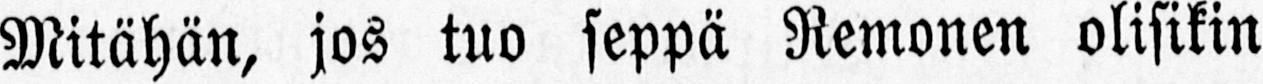Mitähän, jos tuo seppä Remonen olisikin
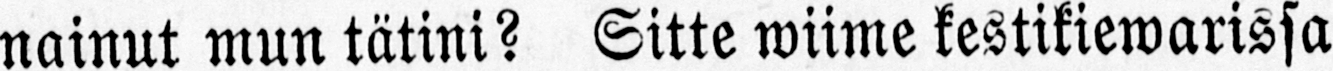nainut mun tätini? Sitte wiime kestikiewarissa
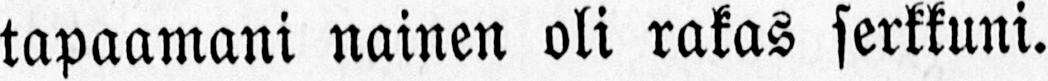tapaamani nainen oli rakas serkkuni.
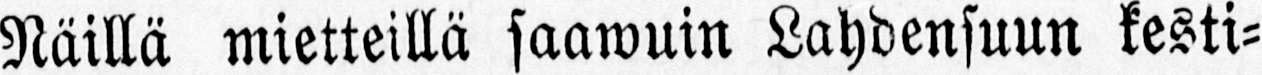Näillä mietteillä saawuin Lahdensuun kesti-
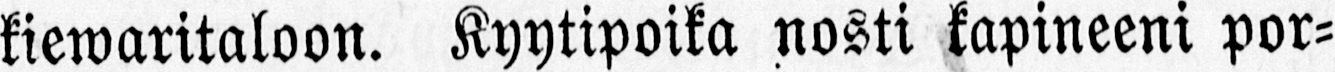kiewaritaloon. Kyytipoika nosti kapineeni por-
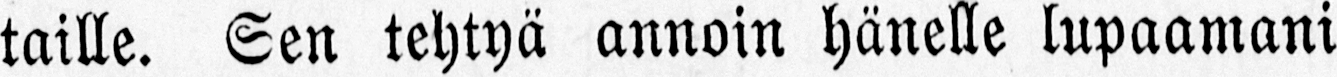taille. Sen tehtyä annoin hänelle lupaamani
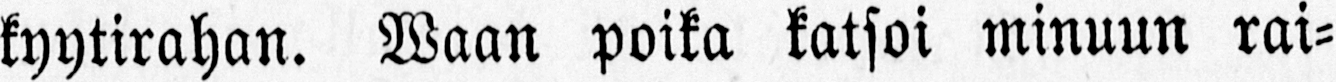kyytirahan. Waan poika katsoi minuun rai-
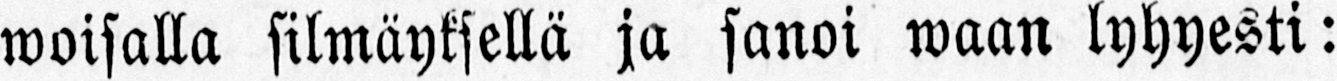woisalla silmäyksellä ja sanoi waan lyhyesti:
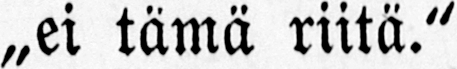„ei tämä riitä."
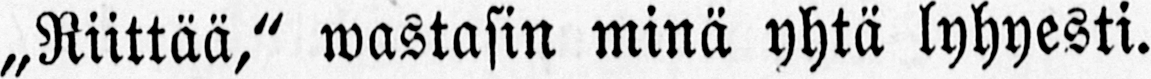„Riittää," wastasin minä yhtä lyhyesti.
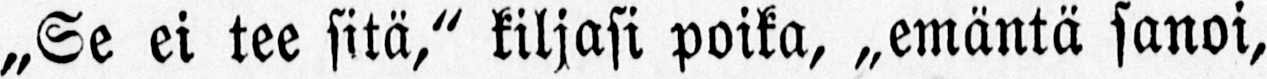„Se ei tee sitä," kiljusi poika, „emäntä sanoi,
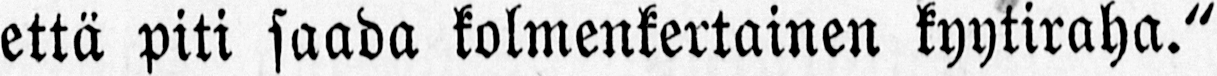että piti saada kolmenkertainen kyytiraha."
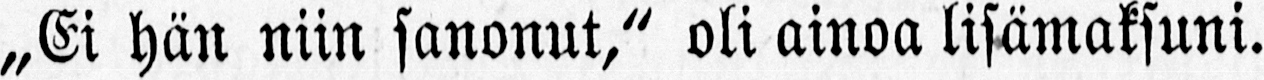„Ei hän niin sanonut," oli ainoa lisämaksuni.
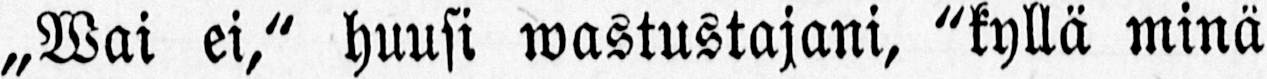„Wai ei," huusi mastustajani, "kyllä minä
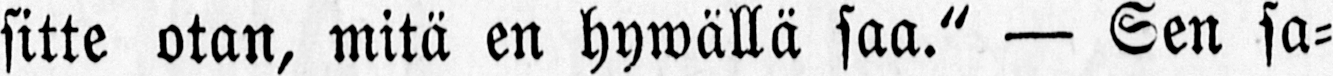sitte otan, mitä en hymällä saa." — Sen sa-
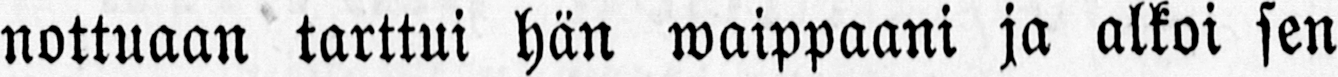nottuaan tarttui hän maippaani ja alkoi sen
